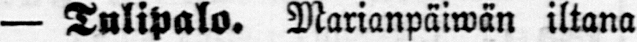— Tulipalo. Marianpäiwän iltana
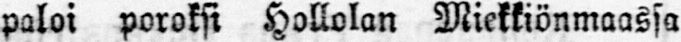paloi poroksi Hollolan Miekkiönmaassa
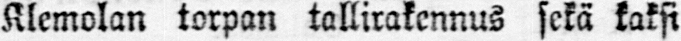Klemolan torpan tallirakennus sekä kaksi
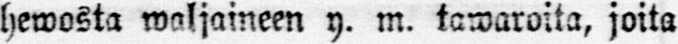hewosta waljaineen y. m. tawaroita, joita
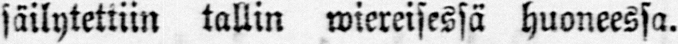säilytettiin tallin wiereisessä huoneessa.
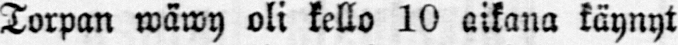Torpan wäwy oli kello 10 aikana käynyt
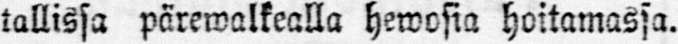rallissa pärewalkealla hewosia hoitamassa.
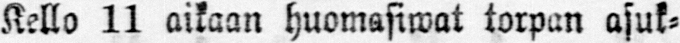Kello 11 aikaan huomasiwat torpan asuk-
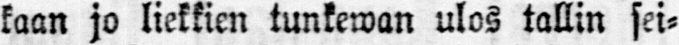kaan jo liekkien tunkewan ulos tallin sei-
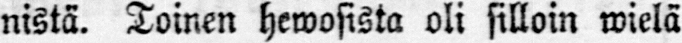nistä. Toinen Hewosista oli silloin wielä
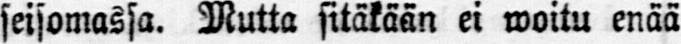seisomassa. Mutta sitäkään ei woitu enää
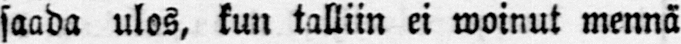saada ulos, kun talliin ei woinut mennä
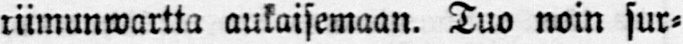riimunwartta aukaisemaan. Tuo noin sur-
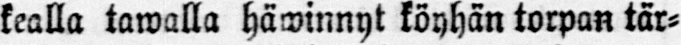kealla tawalla häwinnyt köyhän torpan tär-
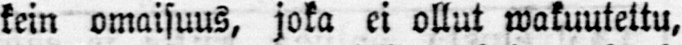kein omaisuus, joka ei ollut wakuutettu,
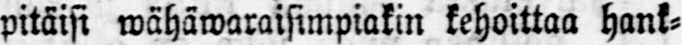pitäisi wähäwaraisimpiakin kehoittaa hank-
